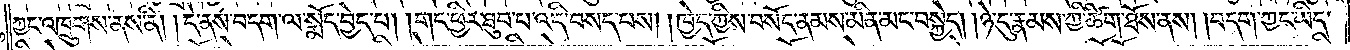ཀྱང་འཁྲུགས་ནས་ནི། །དེ་ནས་བདག་ལ་སྨོད་བྱེད་པ། །གང་ཕྱིར་ཐུབ་པ་འདི་བསད་པས། །ཁྱེད་ཀྱིས་བསོད་ནམས་མིན་མང་བསྐྱེད། །ཉེ་དུ་རྣམས་ཀྱི་ཚིག་ཐོས་ནས། །བདག་ཀྱང་ཡིད་
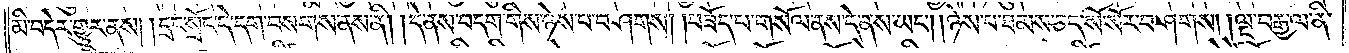མི་བདེར་གྱུར་ནས། །དྲང་སྲོང་དེ་དག་བསགས་ནས་ནི། །དེ་ནས་བདག་གིས་ཉེས་པ་བཤགས། །བཟོད་པ་གསོལ་ནས་དེ་ནས་ཡང༌། །ཉེས་པ་ཐམས་ཅད་སོ་སོར་བཤགས། །ལྔ་བརྒྱ་ལ་ནི་
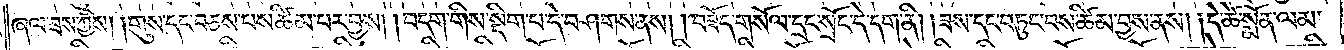ཞལ་ཟས་ཀྱིས། །གུས་དང་བཅས་པས་ཚིམ་པར་བྱས། །བདག་གིས་སྡིག་པ་དེ་བཤགས་ནས། །བཟོད་གསོལ་དྲང་སྲོང་དེ་དག་ནི། །ཟས་དང་བཏུང་བས་ཚིམ་བྱས་ནས། །དེ་ཚེ་སྨོན་ལམ་
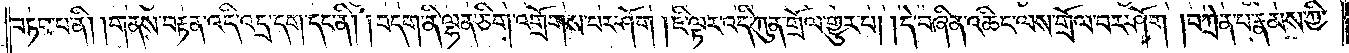བཏབ་པ་ནི། །གནས་བརྟན་འདི་འདྲ་དག་དང་ནི། །བདག་ནི་ལྷན་ཅིག་འགྲོགས་པར་ཤོག །ཇི་ལྟར་འདི་ཀུན་གྲོལ་གྱུར་པ། །དེ་བཞིན་འཆིང་ལས་གྲོལ་བར་ཤོག །བཀྲེན་པ་རྣམས་ཀྱི་
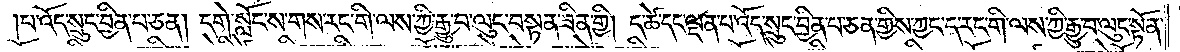།པ་འོད་སྲུང་བྱིན་པ་ཅན། དགེ་སློང་ས་གས་རང་གི་ལས་ཀྱི་རྒྱུ་བ་ལུང་བསྟན་ཟིན་གྱི། ད་ཚེ་དང་ལྡན་པ་འོད་སྲུང་བྱིན་པ་ཅན་གྱིས་ཀྱང་ད་རང་གི་ལས་ཀྱི་རྒྱུ་བ་ལུང་སྟོན་
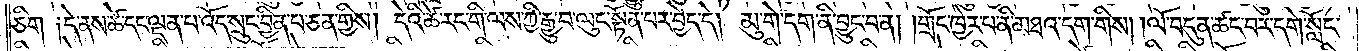ཅིག ༑དེ་ནས་ཚེ་དང་ལྡན་པ་འོད་སྲུང་བྱིན་པ་ཅན་གྱིས། དེའི་ཚེ་རང་གི་ལས་ཀྱི་རྒྱུ་བ་ལུང་སྟོན་པར་བྱེད་དེ། མུ་གེ་དག་ནི་བྱུང་བ་ན། །གྲོང་ཁྱེར་བ་ནི་མཐའ་དག་གིས། །ལོ་བདུན་ཚང་བར་དགེ་སློང་
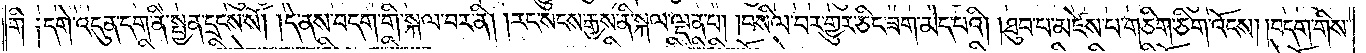གི ༑དགེ་འདུན་དག་ནི་སྤྱན་དྲངས་སོ། །དེ་ནས་བདག་གི་སྐལ་བར་ནི། །རང་སངས་རྒྱས་ནི་སྐལ་ལྡན་པ། །བསིལ་བར་གྱུར་ཅིང་ཟག་མེད་པའི། །ཐུབ་པ་མཛེས་པ་གཅིག་ཅིག་འོངས། །བདག་གིས་
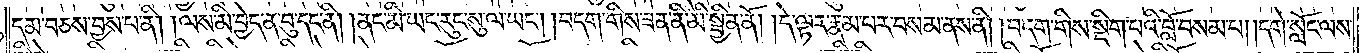དམ་བཅས་བྱས་པ་ནི། །ལས་མི་བྱེད་ན་བུ་དང་ནི། །ནང་མི་ཡང་རུང་སུ་ལ་ཡང༌། །བདག་གིས་ཟན་ནི་མི་སྦྱིན་ནོ། །དེ་ལྟར་རྣམ་པར་བསམ་ནས་ནི། །བདག་གིས་སྡིག་པའི་བློ་བསམ་པ། །དགེ་སློང་ལས་
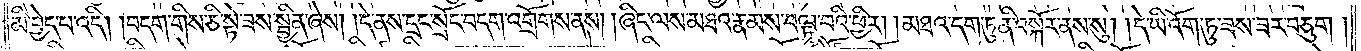མི་བྱེད་པ་འདི། །བདག་གིས་ཅི་སྟེ་ཟས་སྦྱིན་ཞེས། །དེ་ནས་དྲང་སྲོང་བདག་འགྲོགས་ནས། །ཞིང་ལས་མཐའ་རྣམས་བལྟ་བའི་ཕྱིར། །མཐའ་དག་ཏུ་ནི་བསྐོར་ནས་སུ། །དེ་ཡི་འོག་ཏུ་ཟས་ཟར་བཅུག།
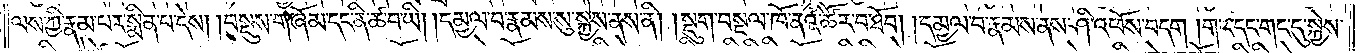ལས་ཀྱི་རྣམ་པར་སྨིན་པ་དེས། །བསྡུས་གཞོམ་དང་ནི་ཚ་བ་ཡི། །དམྱལ་བ་རྣམས་སུ་སྐྱེས་ནས་ནི། །སྡུག་བསྔལ་ཁོ་ནའི་ཚོར་བ་ཐོབ། །དམྱལ་བ་རྣམས་ནས་ཤི་འཕོས་བདག །གང་དང་གང་དུ་སྐྱེས་
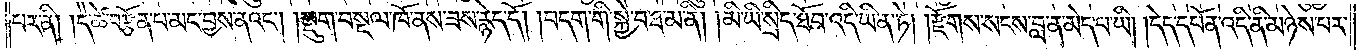པར་ནི། །དེ་ཚེ་བརྩོན་པ་མང་བྱས་ནའང༌། །སྡུག་བསྔལ་ཁོ་ནས་ཟས་རྙེད་དོ། །བདག་གི་སྐྱེ་བ་ཐ་མ་ནི། །མི་ཡི་སྲིད་ཐོབ་འདི་ཡིན་ཏེ། །རྫོགས་སངས་བླ་ན་མེད་པ་ཡི། །དེད་དཔོན་འདི་ནི་མཉེས་པར་
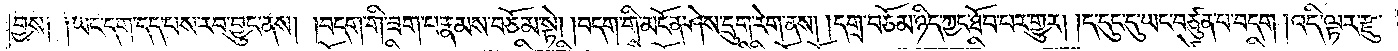བྱས༑ ༑ཡང་དག་དད་པས་རབ་བྱུང་ནས། །བདག་གི་ཟག་པ་རྣམས་བཅོམ་སྟེ། །བདག་གི་མངོན་ཤེས་དྲུག་རེག་ནས། །དགྲ་བཅོམ་ཉིད་ཀྱང་ཐོབ་པར་གྱུར། །ད་དུང་དུ་ཡང་བཙུན་པ་བདག །འདི་ལྟར་རྫུ་
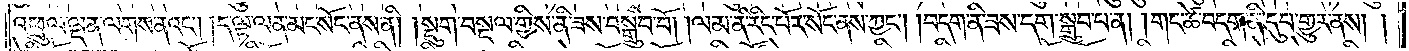འཕྲུལ་ལྡན་ལགས་ནའང༌། །ད་ལྟ་ལན་མང་སོང་ནས་ནི། །སྡུག་བསྔལ་གྱིས་ནི་ཟས་བསྒྲུབ་བོ། །ལམ་ནི་རིང་པོར་སོང་ནས་ཀྱང༌། །བདག་ནི་ཟས་དག་སྒྲུབ་པ་ན། །གང་ཚེ་བདག་ནི་དུབ་གྱུར་ནས། །
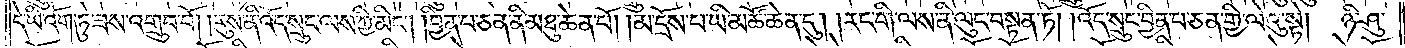དེ་ཡི་འོག་ཏུ་ཟས་འགྲུབ་བོ། །རུས་ནི་འོད་སྲུང་ལས་ཀྱི་མིང༌། །བྱིན་པ་ཅན་ནི་མཐུ་ཆེན་པོ། །མ་དྲོས་པ་ཡི་མཚོ་ཆེན་དུ། །རང་གི་ལས་ནི་ལུང་བསྟན་ཏོ། །འོད་སྲུང་བྱིན་པ་ཅན་གྱི་ལེའུ་སྟེ། ཉི་ཤུ་
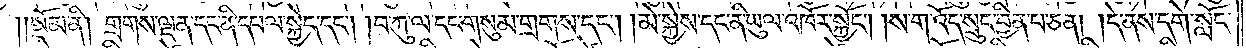སྡོམ་ནི། གྲགས་ལྡན་དང་ནི་དཔལ་སྐྱེད་དང༌། །བ་ཀུ་ལ་དང་གསུམ་གྲགས་དང༌། །མི་སྐྱེས་དང་ནི་ཡུལ་འཁོར་སྐྱོང༌། །ས་ག་འོད་སྲུང་བྱིན་པ་ཅན། །དེ་ནས་དགེ་སློང་
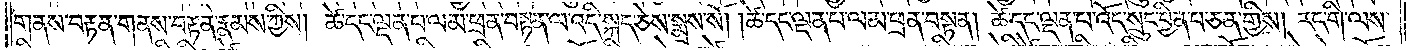གནས་བརྟན་གནས་བརྟན་རྣམས་ཀྱིས། ཚེ་དང་ལྡན་པ་ལམ་ཕྲན་བསྟན་ལ་འདི་སྐད་ཅེས་སྨྲས་སོ། །ཚེ་དང་ལྡན་པ་ལམ་ཕྲན་བསྟན། ཚེ་དང་ལྡན་པ་འོད་སྲུང་བྱིན་པ་ཅན་གྱིས། །རང་གི་ལས་
